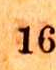16
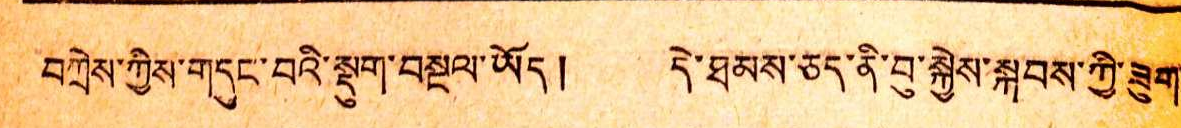བཀི་ཀྱིས་གདུང་བའི་སྡུག་བསྔལ་ཡོད། དེ་ཐམས་ཅད་ནི་བུ་སྐྱེས་སྐབས་ཀྱི་ཟུག་
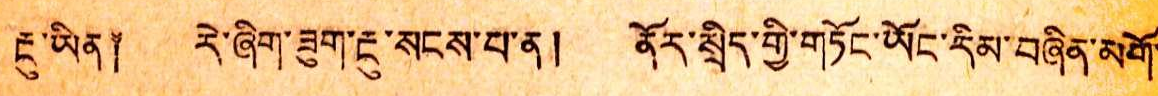རྔུ་ཡིན༐ རེ་ཞིག་ཟུག་རྔུ་སངས་པ་ན། ནོར་སྲིད་གྱི་གཏོང་ཡོང་རིམ་བཞིན་མགོ་
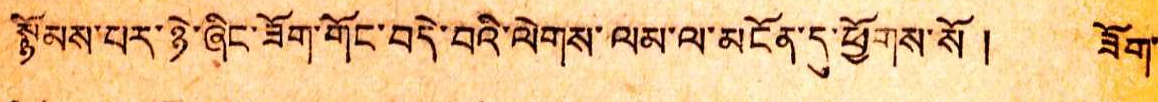སྙོམས་པར་ཉེ་ཞིང་ཟོག་གོང་བདེ་བའི་ལེགས་ལམ་ལ་མངོན་དུ་ཕྱོགས་སོ ། ཟོག་
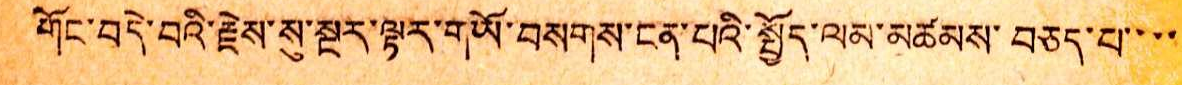གོང་བདེ་བའི་རྗེས་སུ་སྔར་ལྟར་གཡོ་བསགས་ངན་པའི་སྤྱོན་ལམ་མཚམས་བཅད་པ་་་་
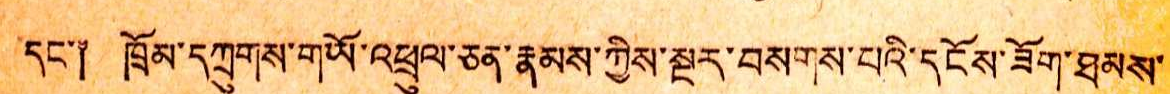དང་༐ ཁྲོམ་དཀྲུགས་གཡོ་འཕྲུལ་ཅན་རྣམས་ཀྱིས་སྔར་བསགས་པའི་དངོས་ཟོག་ཐམས་
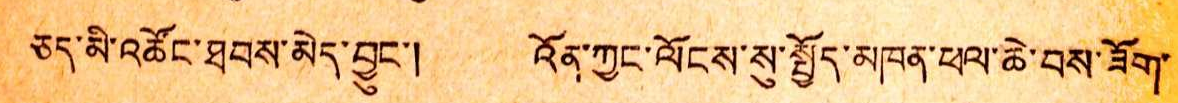ཅད་མི་འཚོང་ཐབས་མེད་བྱུང་། འོན་ཀྱང་ལོངས་སུ་སྤྱོད་མཁན་ཕལ་ཆེ་བས་ཟོག་
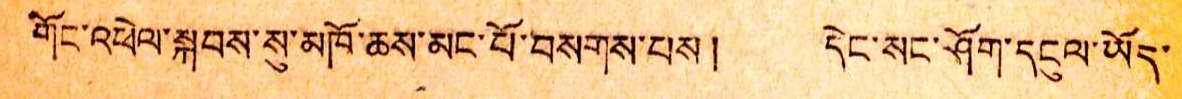གོང་འཕེལ་སྐབས་སུ་མཁོ་ཆས་མང་པོ་བསགས་པས། དེང་སང་ཤོག་དངུལ་ཡོད་
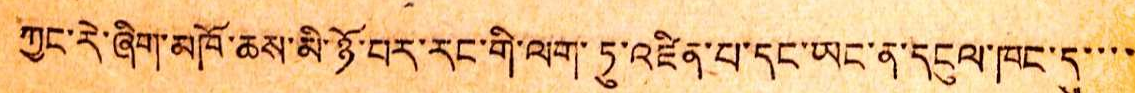ཀྱང་རེ་ཞིག་མཁོ་ཆས་མི་ཉོ་བར་རང་གི་ལག་ཏུ་འཛིན་པ་དང་ཡང་ན་དངུལ་ཁང་དུ་་་་་
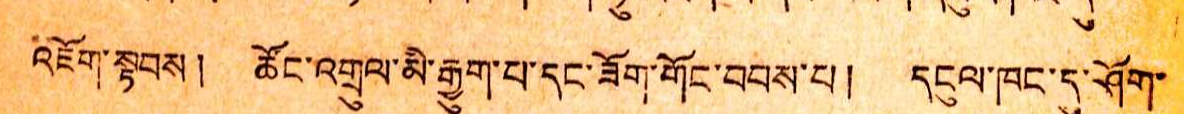འཇོག་སྟབས། ཚོང་འགྲུལ་མི་རྒྱུག་པ་དང་ཟོག་གོང་བབས་པ། དངུལ་ཁང་དུ་ཤོག་
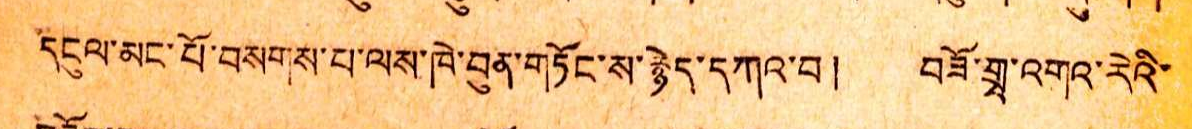དངུལ་མང་པོ་བསགས་པ་ལས་ཁེ་བུན་གཏོང་ས་རྙེད་དཀའ་བ། བཟོ་གྲྭ་འགའ་རེའི་
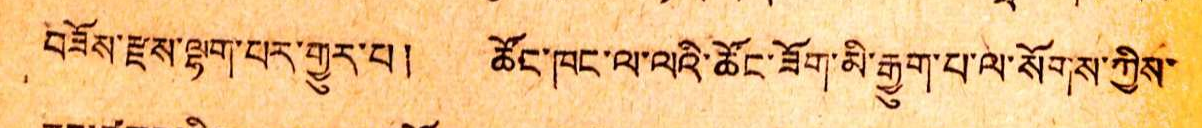བཟོས་རྫས་ལྷག་པར་གྱུར་པ། ཚོང་ཁང་ལ་ལའི་ཚིང་ཟོག་མི་རྒྱུག་པ་ལ་སོགས་ཀྱིས་
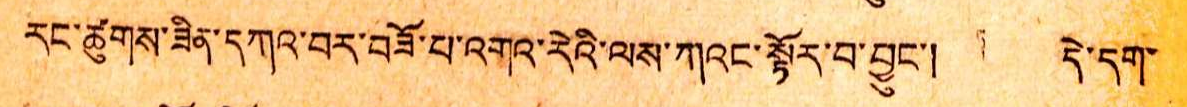རང་ཚུགས་ཟིན་དཀའ་བར་བཟོ་པ་འགའ་རེའི་ལས་ཀའང་སྟོར་བ་བྱུང་། དེ་དག་
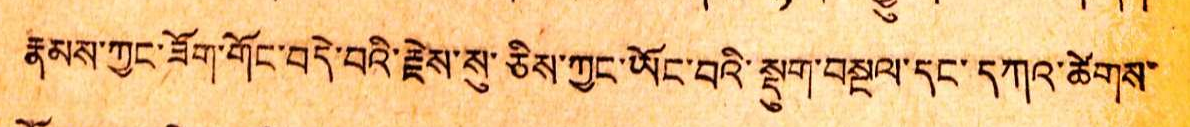རྣམས་ཀྱང་ཟོག་གོང་བདེ་བའི་རྗེས་སུ་ཅིས་ཀྱང་ཡོང་བའི་སྡུག་བསྔལ་དང་དཀའ་ཚེགས་
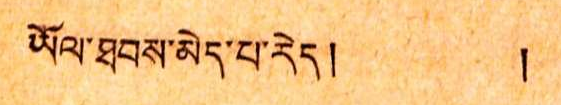ཡོལ་ཐབས་མེད་པ་རེད། །
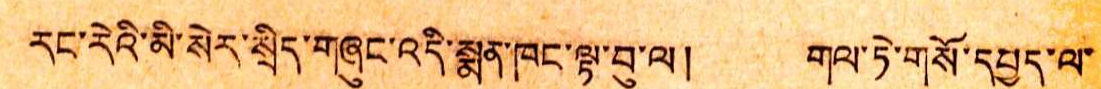རང་རེའི་མི་སེར་སྲིད་གཞུང་འདི་སྨན་ཁང་ལྟ་བུ་ལ། གལ་ཏེ་གསོ་དཔྱད་ལ་
